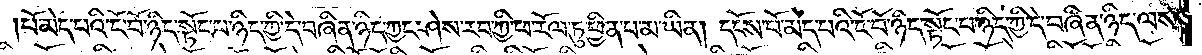པོ་མེད་པའི་ངོ་བོ་ཉིད་སྟོང་པ་ཉིད་ཀྱི་དེ་བཞིན་ཉིད་ཀྱང་ཤེས་རབ་ཀྱི་ཕ་རོལ་ཏུ་ཕྱིན་པ་མ་ཡིན། དངོས་པོ་མེད་པའི་ངོ་བོ་ཉིད་སྟོང་པ་ཉིད་ཀྱི་དེ་བཞིན་ཉིད་ལས་
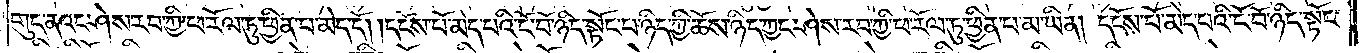གུད་ནའང་ཤེས་རབ་ཀྱི་ཕ་རོལ་ཏུ་ཕྱིན་པ་མེད་དོ། །དངོས་པོ་མེད་པའི་ངོ་བོ་ཉིད་སྟོང་པ་ཉིད་ཀྱི་ཆོས་ཉིད་ཀྱང་ཤེས་རབ་ཀྱི་ཕ་རོལ་ཏུ་ཕྱིན་པ་མ་ཡིན། དངོས་པོ་མེད་པའི་ངོ་བོ་ཉིད་སྟོང་
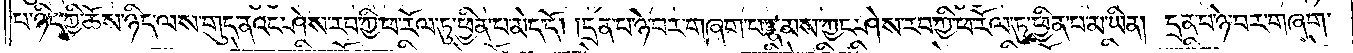པ་ཉིད་ཀྱི་ཆོས་ཉིད་ལས་གུད་ནའང་ཤེས་རབ་ཀྱི་ཕ་རོལ་ཏུ་ཕྱིན་པ་མེད་དོ། །དྲན་པ་ཉེ་བར་གཞག་པ་རྣམས་ཀྱང་ཤེས་རབ་ཀྱི་ཕ་རོལ་ཏུ་ཕྱིན་པ་མ་ཡིན། དྲན་པ་ཉེ་བར་གཞག་
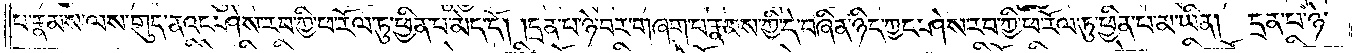པ་རྣམས་ལས་གུད་ནའང་ཤེས་རབ་ཀྱི་ཕ་རོལ་ཏུ་ཕྱིན་པ་མེད་དོ། །དྲན་པ་ཉེ་བར་གཞག་པ་རྣམས་ཀྱི་དེ་བཞིན་ཉིད་ཀྱང་ཤེས་རབ་ཀྱི་ཕ་རོལ་ཏུ་ཕྱིན་པ་མ་ཡིན། དྲན་པ་ཉེ་
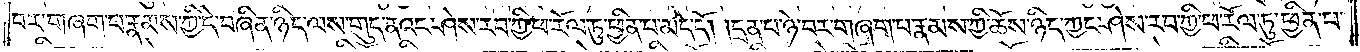བར་གཞག་པ་རྣམས་ཀྱི་དེ་བཞིན་ཉིད་ལས་གུད་ནའང་ཤེས་རབ་ཀྱི་ཕ་རོལ་ཏུ་ཕྱིན་པ་མེད་དོ། །དྲན་པ་ཉེ་བར་གཞག་པ་རྣམས་ཀྱི་ཆོས་ཉིད་ཀྱང་ཤེས་རབ་ཀྱི་ཕ་རོལ་ཏུ་ཕྱིན་པ་
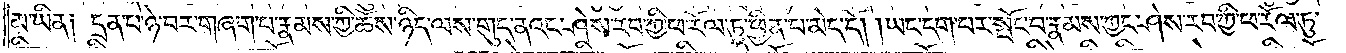མ་ཡིན༑ དྲན་པ་ཉེ་བར་གཞག་པ་རྣམས་ཀྱི་ཆོས་ཉིད་ལས་གུད་ནའང་ཤེས་རབ་ཀྱི་ཕ་རོལ་ཏུ་ཕྱིན་པ་མེད་དོ། །ཡང་དག་པར་སྤོང་བ་རྣམས་ཀྱང་ཤེས་རབ་ཀྱི་ཕ་རོལ་ཏུ་
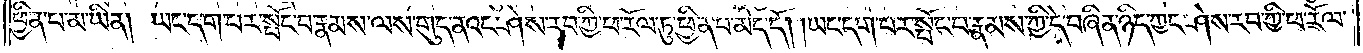ཕྱིན་པ་མ་ཡིན། ཡང་དག་པར་སྤོང་བ་རྣམས་ལས་གུད་ནའང་ཤེས་རབ་ཀྱི་ཕ་རོལ་ཏུ་ཕྱིན་པ་མེད་དོ། །ཡང་དག་པར་སྤོང་བ་རྣམས་ཀྱི་དེ་བཞིན་ཉིད་ཀྱང་ཤེས་རབ་ཀྱི་ཕ་རོལ་
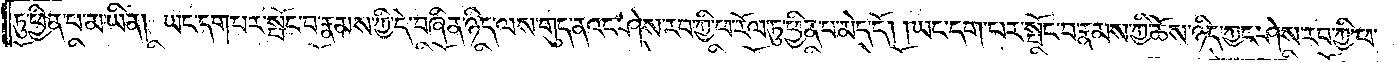ཏུ་ཕྱིན་པ་མ་ཡིན། ཡང་དག་པར་སྤོང་བ་རྣམས་ཀྱི་དེ་བཞིན་ཉིད་ལས་གུད་ནའང་ཤེས་རབ་ཀྱི་ཕ་རོལ་ཏུ་ཕྱིན་པ་མེད་དོ། །ཡང་དག་པར་སྤོང་བ་རྣམས་ཀྱི་ཆོས་ཉིད་ཀྱང་ཤེས་རབ་ཀྱི་ཕ་
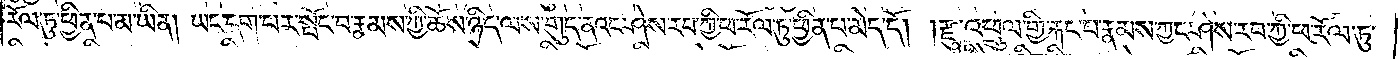རོལ་ཏུ་ཕྱིན་པ་མ་ཡིན། ཡང་དག་པར་སྤོང་བ་རྣམས་ཀྱི་ཆོས་ཉིད་ལས་གུད་ནའང་ཤེས་རབ་ཀྱི་ཕ་རོལ་ཏུ་ཕྱིན་པ་མེད་དོ། །རྫུ་འཕྲུལ་གྱི་རྐང་པ་རྣམས་ཀྱང་ཤེས་རབ་ཀྱི་ཕ་རོལ་ཏུ་
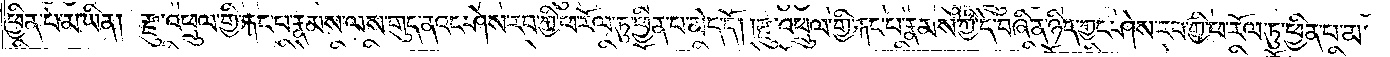ཕྱིན་པ་མ་ཡིན། རྫུ་འཕྲུལ་གྱི་རྐང་པ་རྣམས་ལས་གུད་ནའང་ཤེས་རབ་ཀྱི་ཕ་རོལ་ཏུ་ཕྱིན་པ་མེད་དོ། །རྫུ་འཕྲུལ་གྱི་རྐང་པ་རྣམས་ཀྱི་དེ་བཞིན་ཉིད་ཀྱང་ཤེས་རབ་ཀྱི་ཕ་རོལ་ཏུ་ཕྱིན་པ་མ་
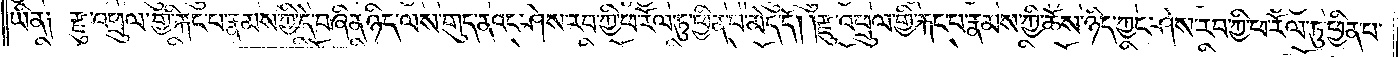ཡིན། རྫུ་འཕྲུལ་གྱི་རྐང་པ་རྣམས་ཀྱི་དེ་བཞིན་ཉིད་ལས་གུད་ནའང་ཤེས་རབ་ཀྱི་ཕ་རོལ་ཏུ་ཕྱིན་པ་མེད་དོ། །རྫུ་འཕྲུལ་གྱི་རྐང་པ་རྣམས་ཀྱི་ཆོས་ཉིད་ཀྱང་ཤེས་རབ་ཀྱི་ཕ་རོལ་ཏུ་ཕྱིན་པ་
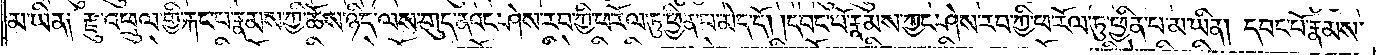མ་ཡིན། རྫུ་འཕྲུལ་གྱི་རྐང་པ་རྣམས་ཀྱི་ཆོས་ཉིད་ལས་གུད་ནའང་ཤེས་རབ་ཀྱི་ཕ་རོལ་ཏུ་ཕྱིན་པ་མེད་དོ། །དབང་པོ་རྣམས་ཀྱང་ཤེས་རབ་ཀྱི་ཕ་རོལ་ཏུ་ཕྱིན་པ་མ་ཡིན། དབང་པོ་རྣམས་
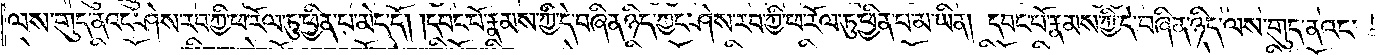ལས་གུད་ནའང་ཤེས་རབ་ཀྱི་ཕ་རོལ་ཏུ་ཕྱིན་པ་མེད་དོ། །དབང་པོ་རྣམས་ཀྱི་དེ་བཞིན་ཉིད་ཀྱང་ཤེས་རབ་ཀྱི་ཕ་རོལ་ཏུ་ཕྱིན་པ་མ་ཡིན། དབང་པོ་རྣམས་ཀྱི་དེ་བཞིན་ཉིད་ལས་གུད་ནའང་
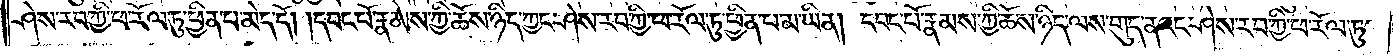ཤེས་རབ་ཀྱི་ཕ་རོལ་ཏུ་ཕྱིན་པ་མེད་དོ། །དབང་པོ་རྣམས་ཀྱི་ཆོས་ཉིད་ཀྱང་ཤེས་རབ་ཀྱི་ཕ་རོལ་ཏུ་ཕྱིན་པ་མ་ཡིན། དབང་པོ་རྣམས་ཀྱི་ཆོས་ཉིད་ལས་གུད་ནའང་ཤེས་རབ་ཀྱི་ཕ་རོལ་ཏུ་
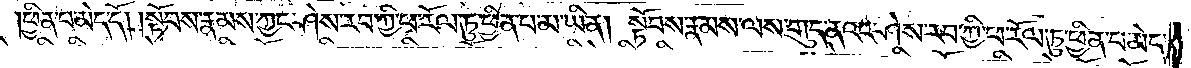ཕྱིན་པ་མེད་དོ། །སྟོབས་རྣམས་ཀྱང་ཤེས་རབ་ཀྱི་ཕ་རོལ་ཏུ་ཕྱིན་པ་མ་ཡིན། སྟོབས་རྣམས་ལས་གུད་ནའང་ཤེས་རབ་ཀྱི་ཕ་རོལ་ཏུ་ཕྱིན་པ་མེད་
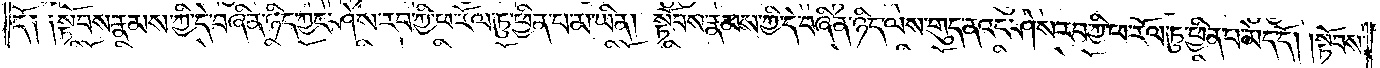དོ། །སྟོབས་རྣམས་ཀྱི་དེ་བཞིན་ཉིད་ཀྱང་ཤེས་རབ་ཀྱི་ཕ་རོལ་ཏུ་ཕྱིན་པ་མ་ཡིན། སྟོབས་རྣམས་ཀྱི་དེ་བཞིན་ཉིད་ལས་གུད་ནའང་ཤེས་རབ་ཀྱི་ཕ་རོལ་ཏུ་ཕྱིན་པ་མེད་དོ། །སྟོབས་
